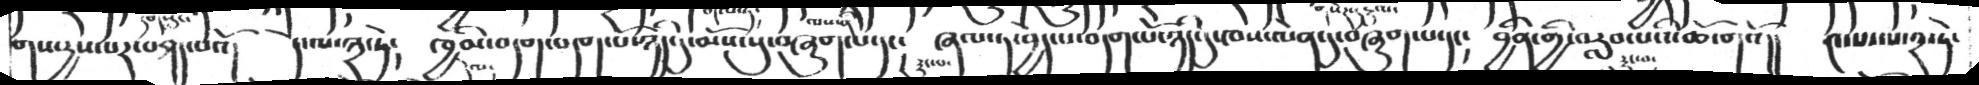གས་རྱས་པར་བཤད་པའོ།  དེ་ལ་༣་ཏེ༴   ཁྱིམ་བདག་བདག་པོ་ཉིད་དུ་མོས་སུ་བཞུག་པ་དང༴  ཞལ་ཏ་བྱེད་པ་བདག་པོ་ཉིད་དུ་ཁས་ལེན་དུ་བཞུག་པ་དང༴   བྱིན་གྱི་བརླབ་པའི་ཆོ་གའོ།།  ༤་པ་ལ་༢་ཏེ་
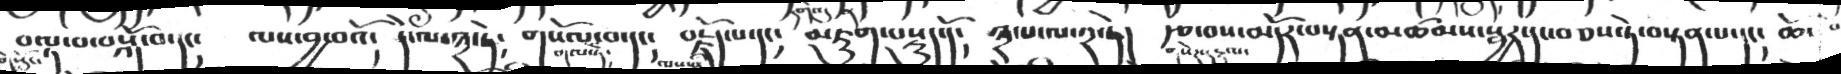བལྟ་བ་བསྐོ་བ་དང།   ལས་བྱ་བའོ།   དེ་ལ་༣་ཏེ།   གསོལ་བ་དང།   བརྗོད་པ་དང།  མཇུག་བསྡུད་དོ།   ༣་པ་ལ་༢་ཏེ།  རྩ་བས་མདོར་བསྟན་མཚམས་སྦྱར་དང་བཅས་ཏེ་བསྟན་པ་དང།   ཆོ
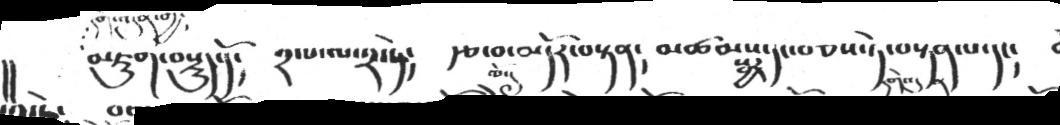།།  དགེ་འདུན་གྱི།  མཇུག་བསྡུད་དོ།   ༢་པ་ལ་༢་ཏེ།   རྩ་བ་མདོར་བསྟན།   མཚམས་སྦྱར་དང་བཅས་ཏེ་བསྟན་པ་དང།
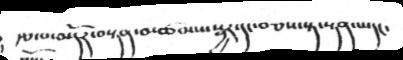རྩ་བ་མདོར་བསྟན་མཚམས་སྦྱར་དང་བཅས་སྟ་སྟན་པ་དང
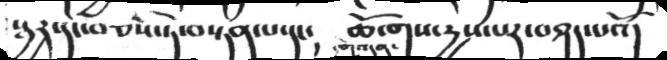སྦྱར་དང་བཅས་ཏེ་བསྟན་པ་དང།    ཆོ་གས་རྱས་པར་བཤད་པའོ།
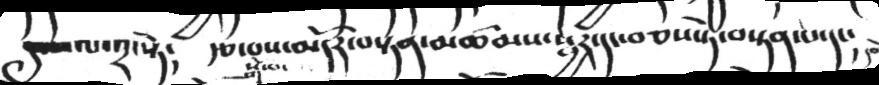ལ་༢་སྟེ༴  རྩ་བས་མདོར་བསྟན་མཚམས་སྦྱར་དང་བཅས་ཏེ་བསྟན་པ་དང༴
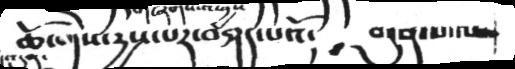ཆོ་གས་རྱས་པར་བཤད་པའོ༴   བདུན་པ་ལ་
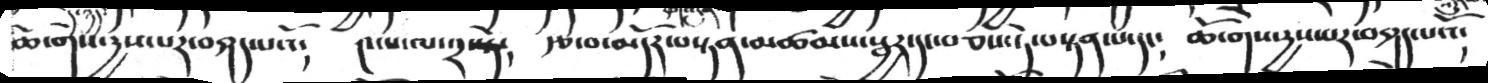ཆོ་གས་རྱས་པར་བཤད་པའོ༴  ༤་པ་ལ་༢་སྟེ༴  རྩ་བ་མདོར་བསྟན་མཚམས་སྦྱར་དང་བཅས་ཏེ་བསྟན་པ་དང༴  ཆོ་གས་རྱས་པར་བཤད་པའོ༴
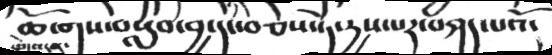ཆོ་གས་བསླབ་བྱ་དང་བཅས་ཏེ་རྱས་པར་བཤད་པའོ༴
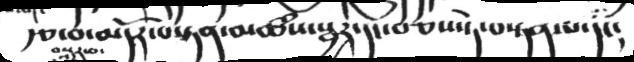རྩ་བ་མདོར་བསྟན་མཚཾས་སྦྱར་དང་བཅས་ཏེ་བསྟན་པ་དང༴
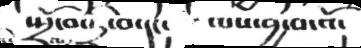སྤྲོ་བ་ཏྲི་བ་དང༴   ལས་་བྱ་བ་འོ༴
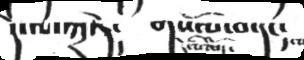དེ་ལ་ཀྲཏེ༴   གསོལ་བ་དང༴
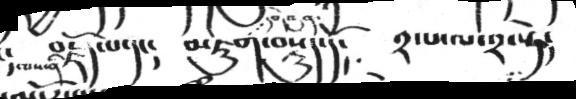བརྗོད་པ་དང༴  མཇུག་བསྡུད་དོ༴  ༢་པ་ལ་༢་སྟེ༴
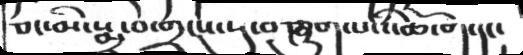ཅང་མི་སྨྲ་བ་གྲངས་སུ་བཞུག་པའི་ཆོ་ག་དང།
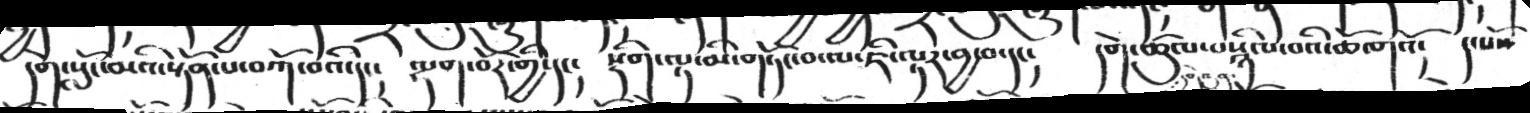དགེ་སློང་མའི་སྟོན་པ་བཀོ་བའི་དང༴  ལྷག་བོར་གྱི་དང༴  སྡིག་ལྟ་མི་གཏོང་བ་ལ་ཇི་ལྟར་བྱ་བ་དང༴   དགེ་ཚུལ་བསྙིལ་བའི་ཆོ་གའོ༴  དང་པོ
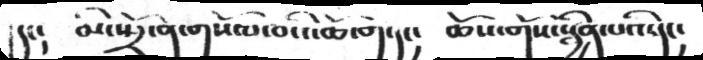དང་། མི་སྤྲོ་ན་གསོལ་བའི་ཆོ་ག་དང། ཆོས་གོས་སྦྱིན་པའི་དང་
